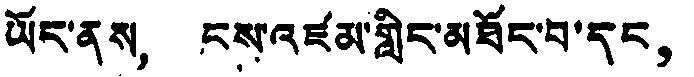ཡོད་ནས， ངས་འཛམ་གླིང་མཐོང་བ་དང，
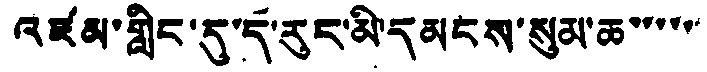འཛམ་གླིང་དུ་ད་རུང་མི་དམངས་སུམ་ཆ་་་་་་་
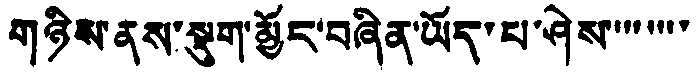གཉིས་ནས་སྡུག་མྱོང་བཞིན་ཡོད་པ་ཤེས་་་་་་་
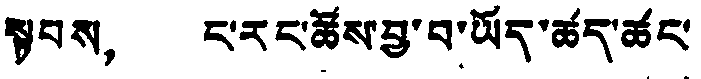སྟབས， ང་རང་ཚོས་བྱ་བ་ཡོད་ཚད་ཚང་
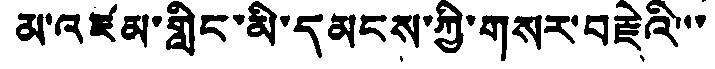མ་འཛམ་གླིང་མི་དམངས་ཀྱི་གསར་བརྗེའི་་་
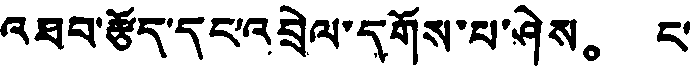འཐབ་རྩོད་དང་འབྲེལ་དགོས་པ་ཤེས。 པ་
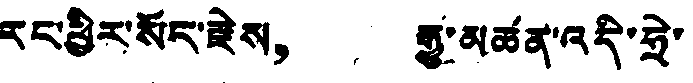རང་ཕྱིར་སོད་རྗེས， རྒྱུ་མཚན་འདི་ཧྲེ་
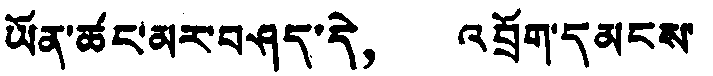ཡོན་ཚང་མར་བཤད་དེ， འབྲོག་དམངས་
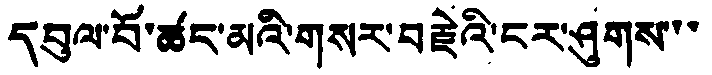དབུལ་བོ་ཚང་མའི་གསར་བརྗེའི་ངར་ཤུགས་་་
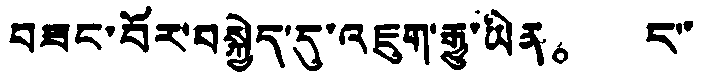བཟང་བོར་བསྐྱེད་དུ་འཇུག་རྒྱུ་ཡིན。 ང་
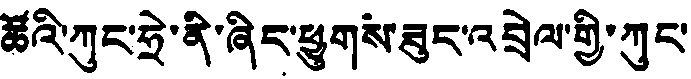ཚོའི་ཀུང་ཧྲེ་ནི་ཞིང་ཕྱུགས་ཟུང་འབྲེལ་གྱི་ཀུང་
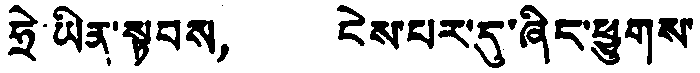ཧྲེ་ཡིན་སྟབས， ངེས་པར་དུ་ཞིང་ཕྱུགས་
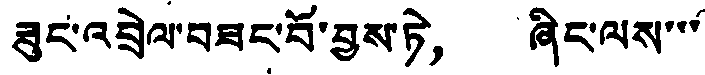ཟུང་འབྲེལ་བཟང་བོ་བྱས་ཏེ， ཞིང་ལས་་་
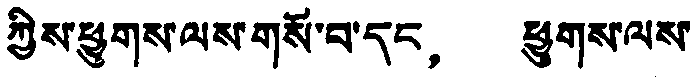ཀྱིས་ཕྱུགས་ལས་གསོ་བ་དང， ཕྱུགས་ལས་
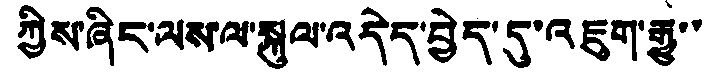ཀྱིས་ཞིང་ལས་ལ་སྐུལ་འདེད་བྱེད་དུ་འཇུག་རྒྱུ་་
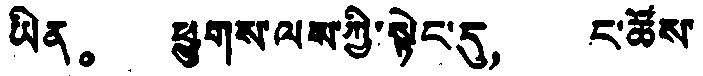ཡིན。 ཕྱུགས་ལས་ཀྱི་སྟེང་དུ， ང་ཚོས་
